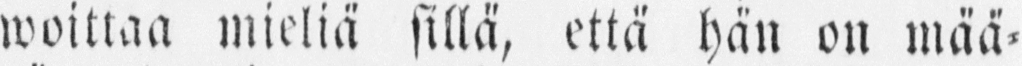woittaa mieliä sillä, että hän on mää-
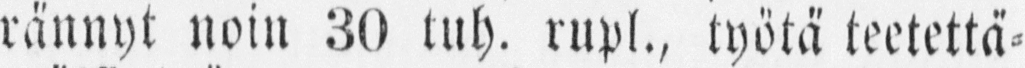rännyt noin 30 tuh, rupl., työtä teetettä-
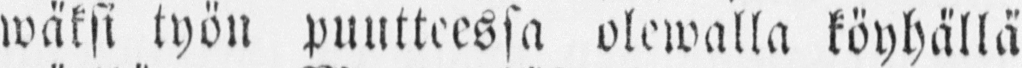wäksi työn puutteessa olewalla köyhällä
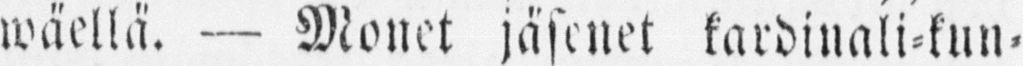wäellä. — Monet jäsenet kardinali-kun-
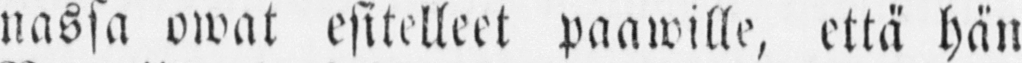nassa owat esitelleet paawille, että hän
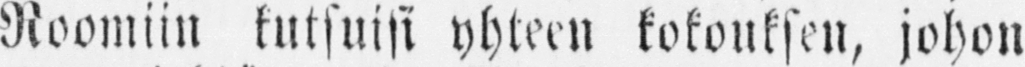Roomiin kutsuisi yhteen kokouksen, johon
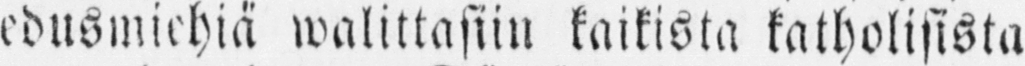edusmiehiä walittasiin kaikista katholisista
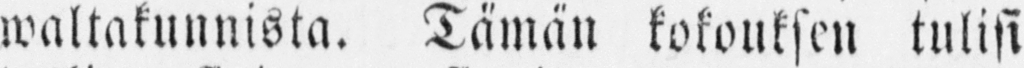waltakunnista. Tämän kokouksen tulisi
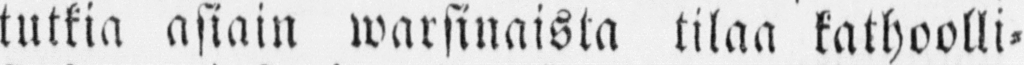tutkia asiain warsinaista tilaa kathoolli-
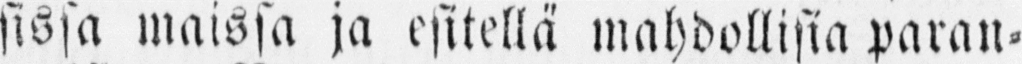sissa maissa ja esitellä mahdollisia paran-
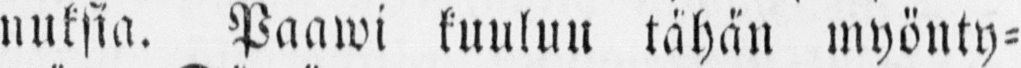nuksia. Paawi kuuluu tähän myönty-
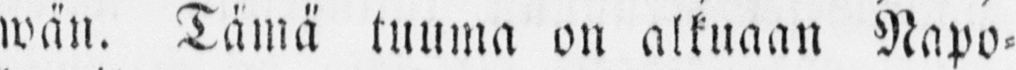wän. Tämä tuuma on alkuaan Napo-
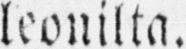leonilta.
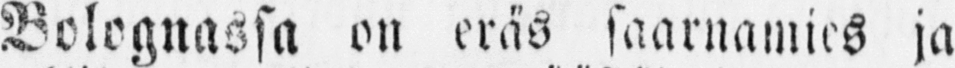Bolognassa on eräs saarnamies ja
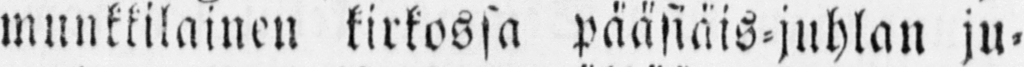munkkilainen kirkossa pääsiäis-juhlan ju-
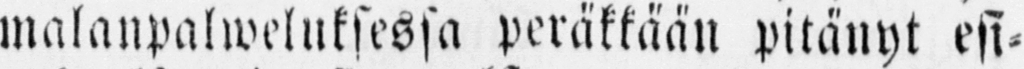malanpalweluksessa peräkkään pitänyt esi-
